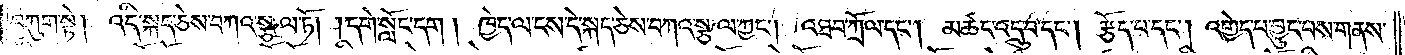བཀུག་སྟེ། འདི་སྐད་ཅེས་བཀའ་སྩལ་ཏོ། །དགེ་སློང་དག །ཁྱེད་ལ་ངས་དེ་སྐད་ཅེས་བཀའ་སྩལ་ཀྱང༌། འཐབ་ཀྲོལ་དང༌། མཚང་འདྲུ་བ་དང༌། རྩོད་པ་དང༌། འགྱེད་པ་བྱུང་བས་གནས་
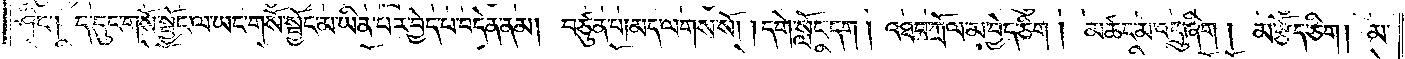ཤིང༌། ད་དུང་གསོ་སྦྱོང་ལ་ཡང་གསོ་སྦྱོང་མ་ཡིན་པར་བྱེད་པ་བདེན་ནམ། བཙུན་པ། མད་ལགས་སོ། །དགེ་སློང་དག །འཐབ་ཀྲོལ་མ་བྱེད་ཅིག །མཚང་མ་འདྲུ་ཞིག །མ་རྩོད་ཅིག །མ་
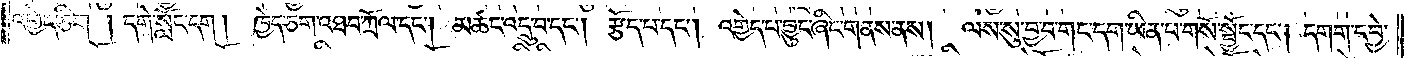འགྱེད་ཅིག །དགེ་སློང་དག །ཁྱེད་ཅག་འཐབ་ཀྲོལ་དང༌། མཚང་འདྲུ་བ་དང༌། རྩོད་པ་དང༌། འགྱེད་པ་བྱུང་ཞིང་གནས་ནས། ལས་སུ་བྱ་བ་གང་དག་ཡིན་པ་གསོ་སྦྱོང་དང༌། དགག་དབྱེ་
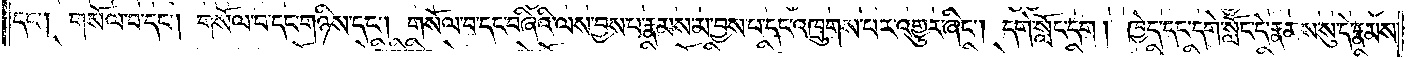དང༌། གསོལ་བ་དང༌། གསོལ་བ་དང་གཉིས་དང༌། གསོལ་བ་དང་བཞིའི་ལས་བྱས་པ་རྣམས་མ་བྱས་པ་དང་འཁྲུགས་པར་འགྱུར་ཞིང༌། དགེ་སློང་དག །ཁྱེད་དང་དགེ་སློང་དེ་རྣམས་སུ་དེ་རྣམས་
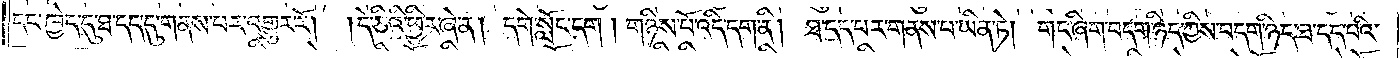དང་ཁྱེད་དུ་ཐ་དད་དུ་གནས་པར་འགྱུར་རོ། །དེ་ཅིའི་ཕྱིར་ཞེ་ན། དགེ་སློང་དག །གཉིས་པོ་འདི་དག་ནི། ཐ་དད་པར་གནས་པ་ཡིན་ཏེ། གང་ཞིག་བདག་ཉིད་ཀྱིས་བདག་ཉིད་ཐ་དད་པའི་
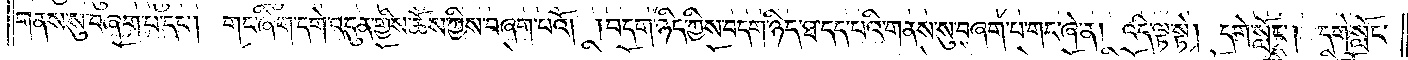གནས་སུ་བཞག་པ་དང༌། གང་ཞིག་དགེ་འདུན་གྱིས་ཆོས་ཀྱིས་བཞག་པའོ། །བདག་ཉིད་ཀྱིས་བདག་ཉིད་ཐ་དད་པའི་གནས་སུ་བཞག་པ་གང་ཞེ་ན། འདི་ལྟ་སྟེ། དགེ་སློང༌། དགེ་སློང་
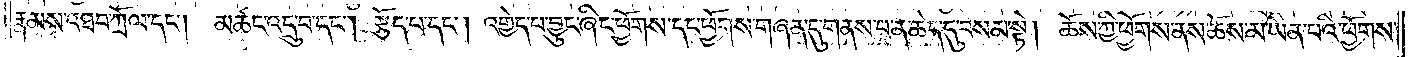རྣམས་འཐབ་ཀྲོལ་དང༌། མཚང་འདྲུ་བ་དང༌། རྩོད་པ་དང༌། འགྱེད་པ་བྱུང་ཞིང་ཕྱོགས་དང་ཕྱོགས་གཞན་དུ་གནས་པ་ན་ཆེད་དུ་བསམ་སྟེ། ཆོས་ཀྱི་ཕྱོགས་ནས་ཆོས་མ་ཡིན་པའི་ཕྱོགས་
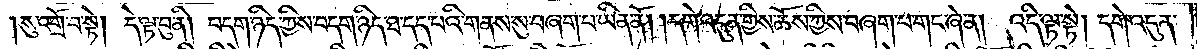།སུ་འགྲོ་བ་སྟེ། དེ་ལྟ་བུ་ནི། བདག་ཉིད་ཀྱིས་བདག་ཉིད་ཐ་དད་པའི་གནས་སུ་བཞག་པ་ཡིན་ནོ། །དགེ་འདུན་གྱིས་ཆོས་ཀྱིས་བཞག་པ་གང་ཞེ་ན། འདི་ལྟ་སྟེ། དགེ་འདུན་
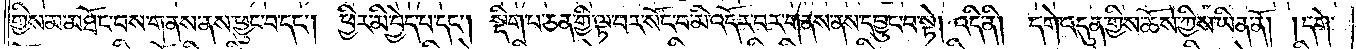གྱིས་མ་མཐོང་བས་གནས་ནས་ཕྱུང་བ་དང༌། ཕྱིར་མི་བྱེད་པ་དང༌། སྡིག་པ་ཅན་གྱི་ལྟ་བར་སོང་བ་མི་འདོར་བར་གནས་ནས་དབྱུང་བ་སྟེ། འདི་ནི། དགེ་འདུན་གྱིས་ཆོས་ཀྱིས་ཡིན་ནོ། །དགེ་
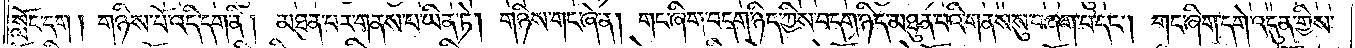སློང་དག །གཉིས་པོ་འདི་དག་ནི། མཐུན་པར་གནས་པ་ཡིན་ཏེ། གཉིས་གང་ཞེ་ན། གང་ཞིག་བདག་ཉིད་ཀྱིས་བདག་ཉིད་མཐུན་པའི་གནས་སུ་བཞག་པ་དང༌། གང་ཞིག་དགེ་འདུན་གྱིས་
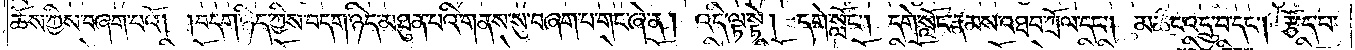ཆོས་ཀྱིས་བཞག་པའོ། །བདག་ཉིད་ཀྱིས་བདག་ཉིད་མཐུན་པའི་གནས་སུ་བཞག་པ་གང་ཞེ་ན། འདི་ལྟ་སྟེ། དགེ་སློང༌། དགེ་སློང་རྣམས་འཐབ་ཀྲོལ་དང༌། མཚང་འདྲུ་བ་དང༌། རྩོད་པ་
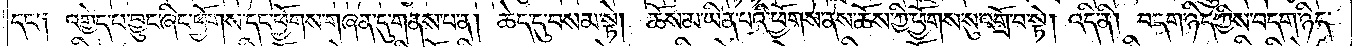དང༌། འགྱེད་པ་བྱུང་ཞིང་ཕྱོགས་དང་ཕྱོགས་གཞན་དུ་གནས་པ་ན། ཆེད་དུ་བསམ་སྟེ། ཆོས་མ་ཡིན་པའི་ཕྱོགས་ནས་ཆོས་ཀྱི་ཕྱོགས་སུ་འགྲོ་བ་སྟེ། འདི་ནི། བདག་ཉིད་ཀྱིས་བདག་ཉིད་
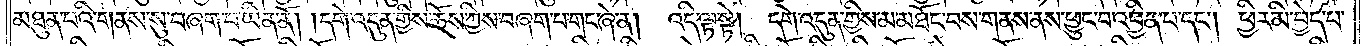མཐུན་པའི་གནས་སུ་བཞག་པ་ཡིན་ནོ། །དགེ་འདུན་གྱིས་ཆོས་ཀྱིས་བཞག་པ་གང་ཞེ་ན།<gap>འདི་ལྟ་སྟེ། དགེ་འདུན་གྱིས་མ་མཐོང་བས་གནས་ནས་ཕྱུང་བ་འབྱིན་པ་དང༌། ཕྱིར་མི་བྱེད་པ་
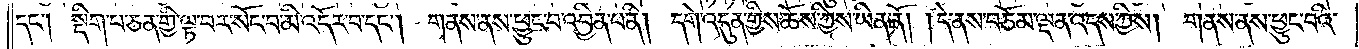དང༌། སྡིག་པ་ཅན་གྱི་ལྟ་བར་སོང་བ་མི་འདོར་བ་དང༌། གནས་ནས་ཕྱུང་བ་འབྱིན་པ་ནི། དགེ་འདུན་གྱིས་ཆོས་ཀྱིས་ཡིན་ནོ། །དེ་ནས་བཅོམ་ལྡན་འདས་ཀྱིས། གནས་ནས་ཕྱུང་བའི་
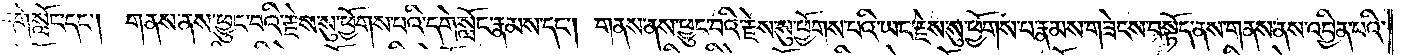དགེ་སློང་དང༌། གནས་ནས་ཕྱུང་བའི་རྗེས་སུ་ཕྱོགས་པའི་དགེ་སློང་རྣམས་དང༌། གནས་ནས་ཕྱུང་བའི་རྗེས་སུ་ཕྱོགས་པའི་ཡང་རྗེས་སུ་ཕྱོགས་པ་རྣམས་གཟེངས་བསྟོད་ནས་གནས་ནས་འབྱིན་པའི་
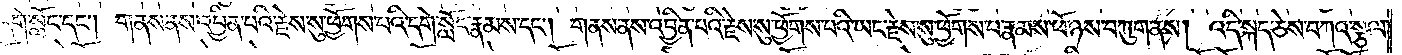དགེ་སློང་དང༌། གནས་ནས་འབྱིན་པའི་རྗེས་སུ་ཕྱོགས་པའི་དགེ་སློང་རྣམས་དང༌། གནས་ནས་འབྱིན་པའི་རྗེས་སུ་ཕྱོགས་པའི་ཡང་རྗེས་སུ་ཕྱོགས་པ་རྣམས་ཕོ་ཉས་བཀུག་ནས། འདི་སྐད་ཅེས་བཀའ་སྩལ་
